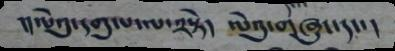།།ལེའུ་དགུ་པ་ལ་༢སྟེ། ལེའུ་གཞུང་དང་།
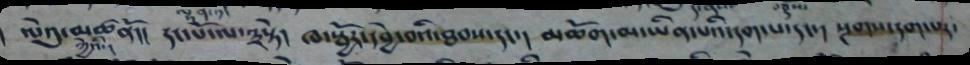ལེའུ་མཚནོ།།  དང་པོ་ལ་༣སྟེ།  ཁ་སྦྱོར་དབྱེ་བའི་ཐབས་དང་།  མཆོག་མ་ཡིན་པའི་དག་པ་དང་།  སྔགས་དག་པར་
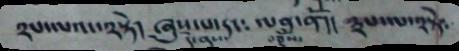༢པ་ལའང་༢སྟེ།  ཞུས་པ་དང༴  ལན་ནོ།།  ༣པ་ལ་༢སྟེ༴
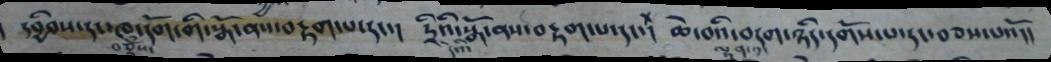དབྱིབས་དང་ཁ་དོག་གི་སྒོ་ནས་བརྟག་པ་དང་།  དྲིའི་སྒོ་ནས་བརྟག་པ་དང་། ཆེ་བའི་བདག་ཉིད་དགོས་པ་དང་བཅས་པའོ།།
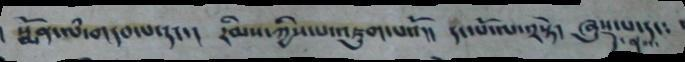སྨོན་ལཾ་གདབ་པ་དང་།  རིམས་ཀྱིས་པ་འཇུག་པའོ།།  དང་པོ་ལ་༢སྟེ། ཞུས་པ་དང༴
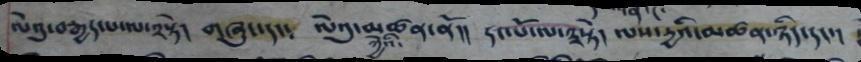ལེའུ་བརྒྱད་པ་ལ་༢སྟེ།  གཞུང་དང༴  ལེའུ་མཚན་ནོ།།  དང་པོ་ལ་༣སྟེ།  ལས་དྱའི་མཚན་ཉིད་དང་།
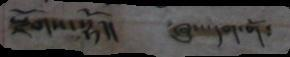རྫོགས་སྷོ།།  ཞུས་དག་གོ༴
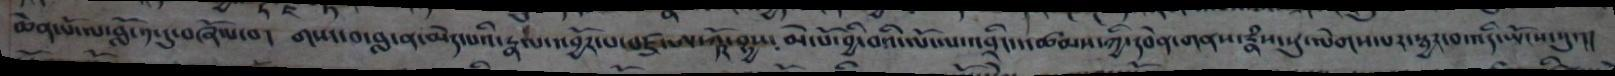ཆེན་པོ་ལ་བློ་༡་དུ་བཞོལ་བ། གསང་བ་བླ་ན་མེད་པའི་རྣལ་འབྱོར་པ་བཛྲ་ཨ་ཀྵོ་བྷྱས༴ མེ་པོ་བྱི་བའི་ལོ་ལ་འབྲིང་འཚམས་ཀྱི་དབེན་གནས་རྣཾས་སུ་ལེགས་པར་སྦྱར་བ་འདི་ཡོངས་སུ་།།
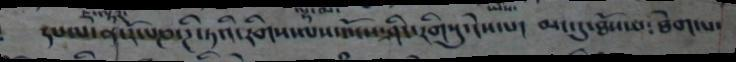དཔལ་ན་རོ་པཎ་ཌི་ཏའི་རིགས་ལས་སོངས་ཤིང་རིགསུ་ངེས་པ།  མང་དུ་ཐོས་པ༴ ཐེག་པ་
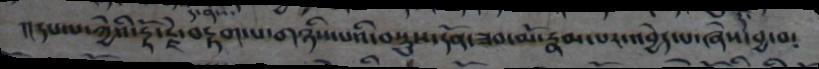།།དཔལ་ཀྱེའི་རྡོ་རྗེ་བརྟག་པ་གཉིས་པའི་བསྡུས་དོན་ཟབ་མོ་རྣམ་པར་འབྱེད་པ་ཞེས་བྱ་བ༴
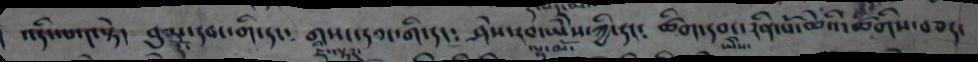འདི་ལ་༤སྟེ།  བུམ་དབང་གི་དང༴  གསང་དབང་གི་དང༴  ཤེས་རབ་ཡེེས་ཀྱི་དང༴   ཚིག་དབང་རིན་པོ་ཆེའི་ཚིགས་བཅད་
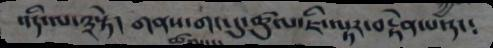འདི་ལ་༣སྟེ།  གནས་གང་དུ་ཚུལ་ཇི་ལྟར་བརྟེན་པ་དང༴
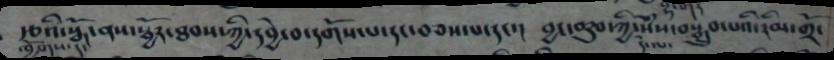རྩའི་སྒོ་ནས་སྦྱོར་ཐབས་ཀྱི་དབྱེ་བ་དགོས་པ་དང་བཅས་པ་དང་།  བྱང་ཆུབ་ཀྱི་སེཾས་བསྒྲུབ་པའི་རིམ་གྲོ་
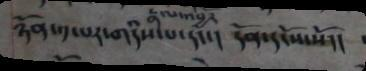ཉོན་༡་པར་གདཾས་པ་དང་།  དོན་དངོས་སོ།།
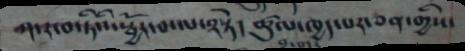ཀ་ར་བ་ཏིའི་སྦྱོར་བ་ལ་༢སྟེ།  ཚུལ་ཁྱད་པར་ཅན་གྱིས་
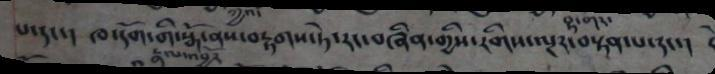པ་དང་། ཁ་དོག་གི་སྒོ་ནས་བརྟགས་ཏེ་རང་བཞིན་གྱིས་རིགས་ལྔར་བསྟན་པ་དང་།
